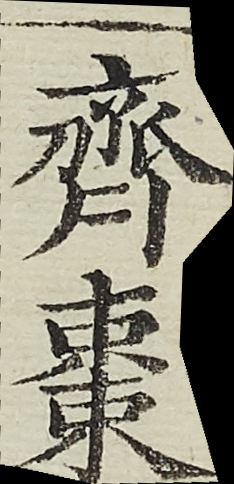齊棗
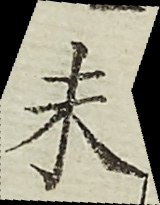未
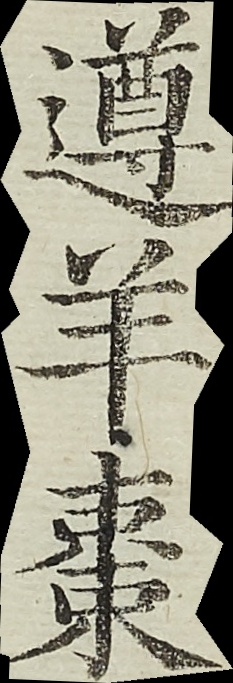遵羊棗
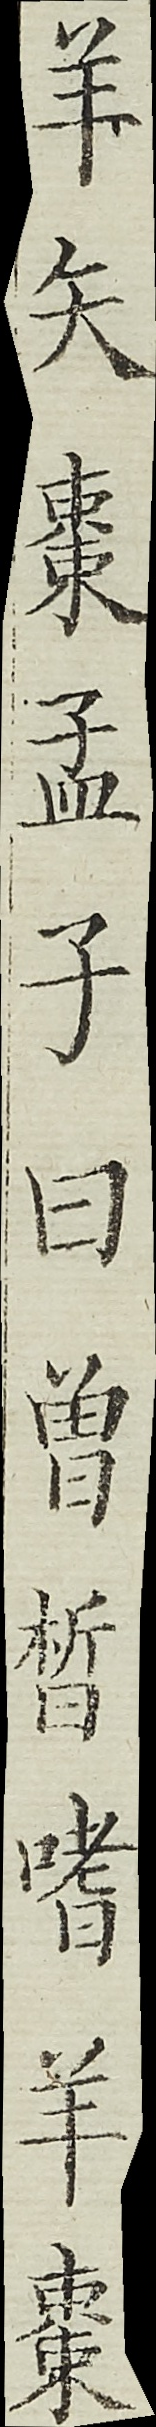羊矢棗孟子曰曾皙嗜羊棗
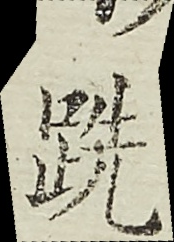跣
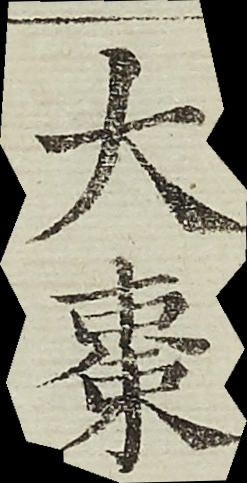大棗
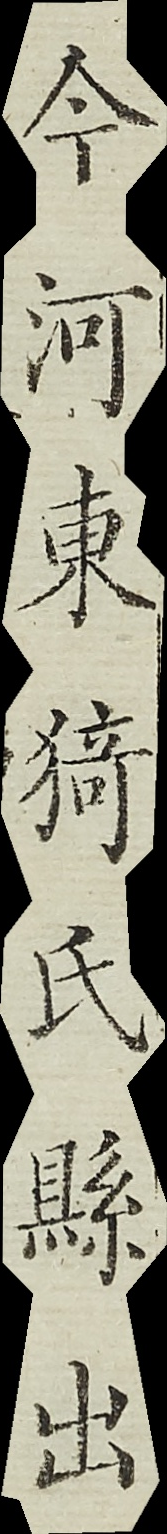今河東猗氏縣出
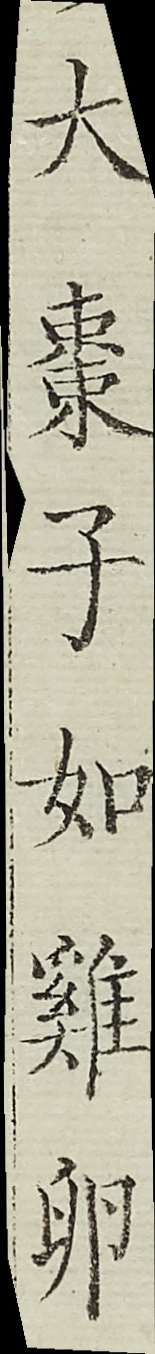大棗子如雞卵
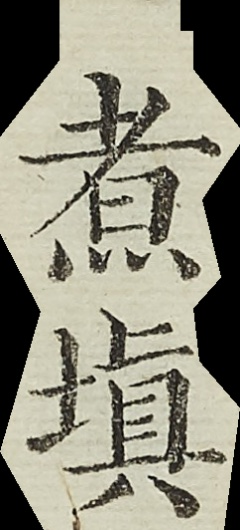煮填
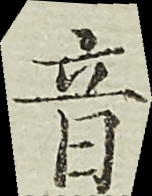音
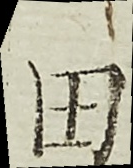田
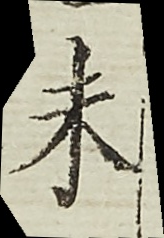未
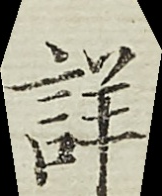詳
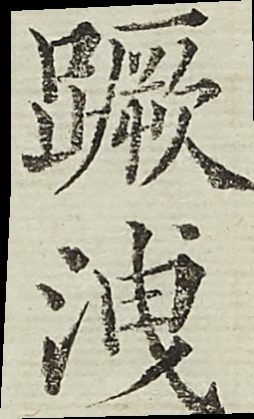蹶洩
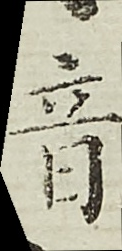音
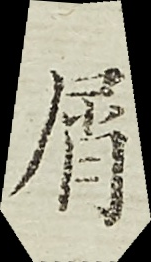屑
